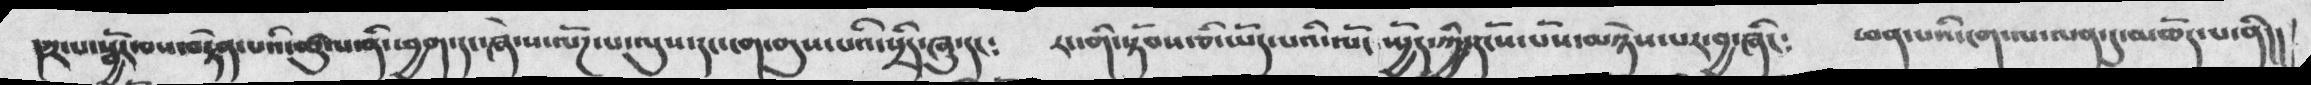།༢་པ་སྦྱོར་བས་སྟེན་པའི་ཚུལ་ནི་ཕྱག་དང་ཞེ་ས་ལེཌ་པ་ལུས་དང་ངག་གུས་པའི་སྲིད་ཞུ་དང༴  རང་གི་སྟོབས་ཅི་ཡོད་པའི་ལོང་སྤྱོད་ཀྱི་དངོས་པོས་མཉེས་པར་བྱ་ཞིང༴  ཕན་པའི་ངག་ལ་ལན་དུ་མཆོད་པ་ནི།།
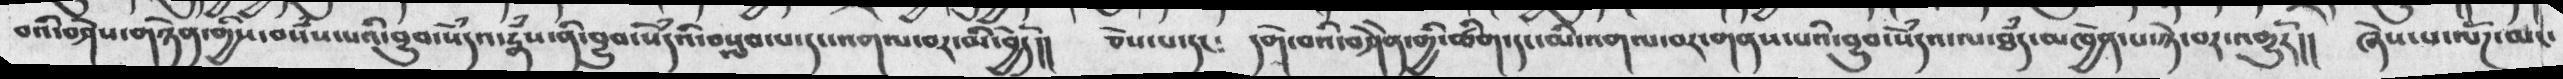བའི་བཤེས་གཉེན་གྱིས་བསཾ་པའི་བྱུབ་སེཾདའི་རྣཾས་ནི་བྱུབ་སེཾདའི་བརླབ་པ་དང་འགལ་བར་མི་བྱེདོ།།  ཅེས་པ་དང༴   དགེ་བའི་བཤེེན་གྱི་ཚིག་དང་མི་འགལ་བར་གནས་པའི་བྱུབ་སེཾདའ་ལ་ཐཾད་མཁྱེན་པ་ཉེ་བར་འགྱུརོ།།   ཞེས་པ་ལོཌ་མང་
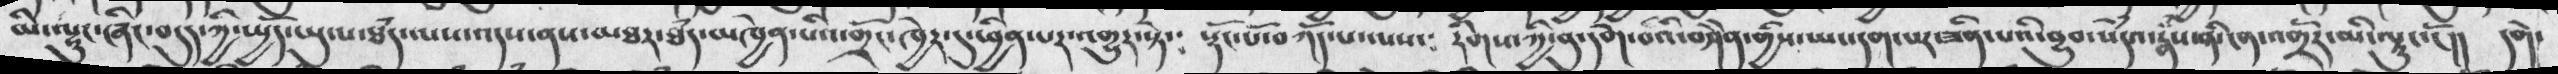མི་ལྟུང་ཞིང་བདུད་ཀྱི་སྤྱོད་ཡུལ་ཐཾད་ལས་འདས་ནས་མཐར་ཐཾད་མཁྱེན་པའི་གྲོང་ཁྱེར་དུ་ཕྱིན་པར་འགྱུར་སྟེ༴  སྡོང་པོ་བཀོད་པ་པས༴  རིགས་ཀྱི་བུ་དགེ་བའི་བཤེེན་གྱིས་ཡང་དག་པར་ཟིན་པའི་བྱུབ་སེཾདའ་རྣཾས་ནི་ངན་འགྲོར་མི་ལྟུང་ངོ།།  དགེ་
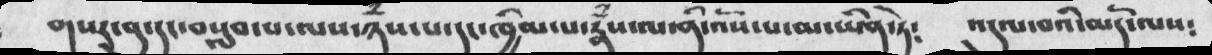གསར་བུ་དང་བསླབ་པ་ལས་ཉེས་པ་དང་ཁྱིམ་པ་རྣཾས་ལ་ནི་འོས་པ་མ་ཡིན་ཏེ༴   འདུལ་བའི་མདོ་ལས༴
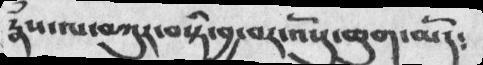རྣཾས་ལ་བཀུར་བསྟི་བྱ་བར་འོསུ་ཆུག་མོད༴
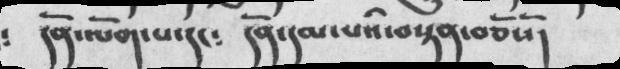༴   དོན་ལོག་པ་དང༴  དོན་དམ་པའི་བསྟན་བཅོསོ།
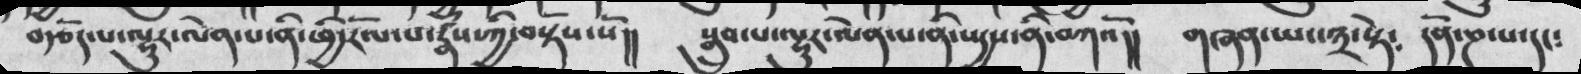བརྩོད་པ་ལྷུར་ལེན་པ་ནི་ཕྱི་རོལ་པ་རྣཾས་ཀྱི་བསྟོས་སོ།།  སྒྲུབ་པ་ལྷུར་ལེན་པ་ནི་སདྱས་ནི་བཀའོ།།  གཞན་ཡང་༣་སྟེ༴  དོན་ཎ་པ་དང༴
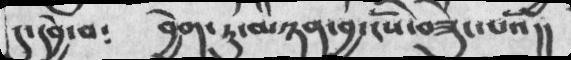དུ་དབྱེ་བ༴  བྱེག་ཏུ་མཉན་བྱ་ངོས་བཟུང་པའོ།།
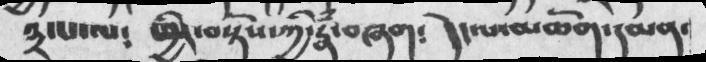༣་པ་ལ༴  ཕྱིར་བསྟོས་ཀྱི་རྣཾ་བཞག༴   དེ་པ་མཆོག་དམན་
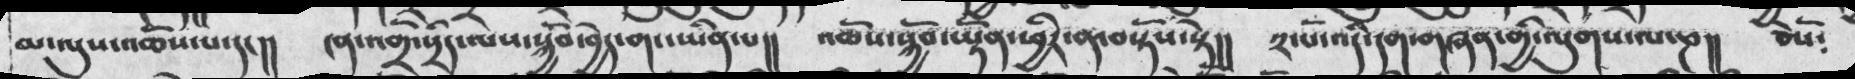མ་ལུས་འཆོས་པ་དང།།   ངན་འགྲོ་སྲིད་ལས་སྐྱོབ་བྱེད་གང་ཡིན་པ།།  འཆོས་སྐྱོབ་ཡྟོན་ཕྱིར་ན་བསྟོས་སྟེ།།  ༢་པོ་འདི་དག་གཞན་གྱི་ལུགས་ལ་ཎ།།  ཅེསོ༴
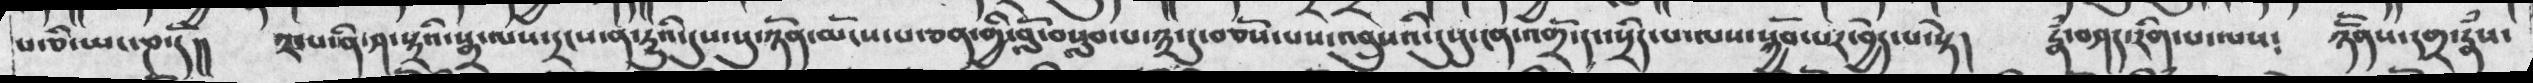པ་ཅི་ཡང་ཎ་དེ།།  ༢་པ་ནི་ཤ་སྟའི་སྒྲ་ལས་དྲངས་ན་རྱུའི་དུས་སུ་ཉོན་མོངས་པ་ཅན་གྱི་བློ་བསླབ་པ་༣་དུ་བཅོས་པས་འབྲུསའི་དུསུ་ན་འགྲོ་དང་སྲིད་པ་ལས་སྐྱོབ་པར་བྱེད་པ་སྟེ།  རྣཾ་བཤད་རིག་པ་ལས༴  ཉོོནས་དགྲ་རྣཾས་
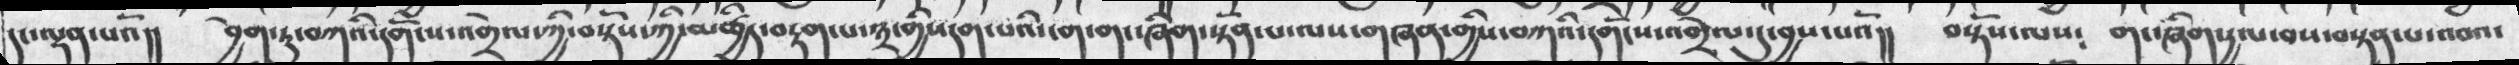དང་ལྡན་པའོ།།  བྱེག་ཏུ་བཀའི་དགོངས་འགྲེལ་ཀྱི་བསྡོས་ཀྱི་མཚྱིད་བརྟག་པ་༣་གྱིས་དག་པའི་ངག་གང་ཞིག་སྟོན་པ་ལས་གཞན་གྱིས་བཀའི་དགོངས་འགྲེལ་དུ་བྱས་པའོ།།    བསྡོས་ལས༴  གང་ཞིག་རྱལ་བས་བསྟན་པ་འབའ་
